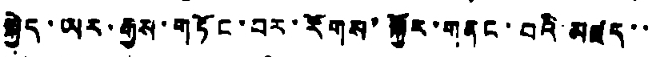སྐྱེད་ཡར་རྒྱས་གཏོང་བར་རོགས་སྐྱོར་གནང་བའི་མཛད་་
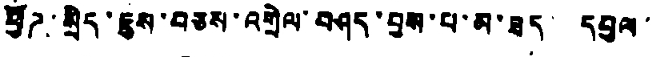ཕྱོཌ་སྲིད་ཇུས་བཅས་འགྲེལ་བཤད་བྱས་པ་མ་ཟད་ དབུལ་
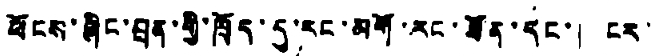ཕོངས་ཞིང་བྲན་གྱི་ཁྲོད་དུ་རང་མགོ་རང་ཐོན་དང་། ངར་
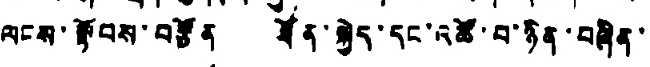ལངས་སྟོབས་བརྩོན ཐོན་སྐྱེད་དང་འཚོ་བ་ཉིན་བཞིན་
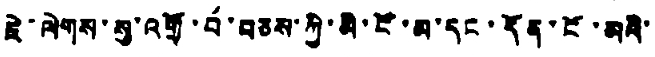ཇེ་ལེགས་སུ་འགྲོ་བ་བཅས་ཀྱི་མི་ངོ་མ་དང་དོན་ངོ་མའི་
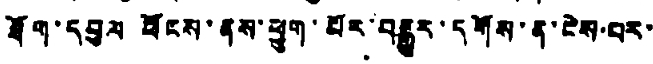ཐོག་དབུལ ཕོངས་ནས་ཕྱུག་པོར་བསྒྱུར་དགོས་ན་ངེས་པར་
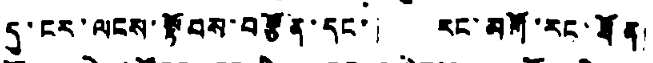དུ་ངར་ལངས་སྟོབས་བརྩོན་དང་། རང་མགོ་རང་ཐོན།
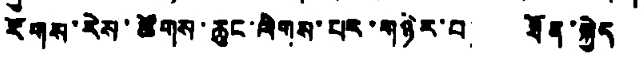རོགས་རེས་ཚོགས་ཆུང་ལེགས་པར་གཉིར་བ། ཐོན་སྐྱེད
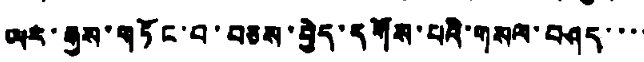ཡར་རྒྱས་གཏོང་བ་བཅས་བྱེད་དགོས་པའི་གསལ་བཤད་་་་
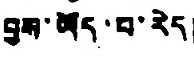བྱས་ཡོད་པ་རེད།
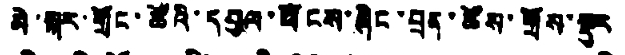མེ་སྐར་གྲོང་ཚོའི་དབུལ་ཕོངས་ཞིང་བྲན་ཚོས་གྲོས་སྡུར
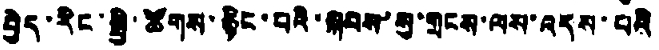བྱེད་རིང་སྤྱི་ཚོགས་རྙིང་པའི་སྐབས་སུ་གྲངས་ལས་འདས་པའི
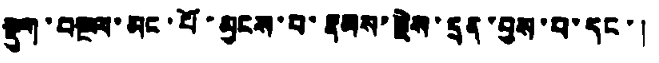སྡུག་བསྔལ་མང་པོ་མྱངས་བ་རྣམས་རྗེས་དྲན་བྱས་པ་དང་།
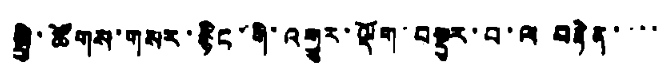སྤྱི་ཚོགས་གསར་རྙིང་གི་འགྱུར་ལྡོག་བསྡུར་བ་ལ བརྟེན་་་་
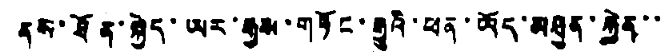ནམ་ཐོན་སྐྱེད་ཡར་རྒྱས་གཏོང་རྒྱུའི་ཕན་ཡོད་མཐུན་རྐྱེན་་
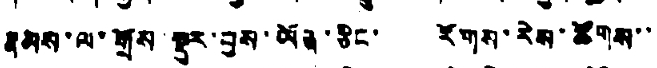རྣམས་ལ་གྲོས་སྡུར་བྱས་ཡོད་ཅིང་། རོགས་རེས་ཚོགས་་
